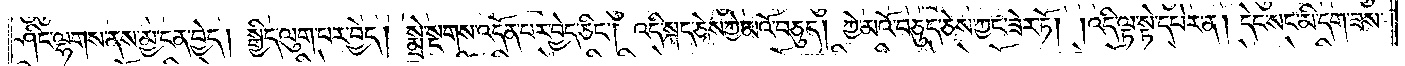ཤིང་ལྷགས་ནས་མྱ་ངན་བྱེད། སྒྱིད་ལུག་པར་བྱེད། སྨྲེ་སྔགས་འདོན་པར་བྱེད་ཅིང༌། འདི་སྐད་ཅེས་ཀྱེ་མའོ་བཅུད། ཀྱེ་མའོ་བཅུད་ཅེས་ཀྱང་ཟེར་ཏོ། །འདི་ལྟ་སྟེ་དཔེར་ན། དེང་སང་མི་དག་ཟས་
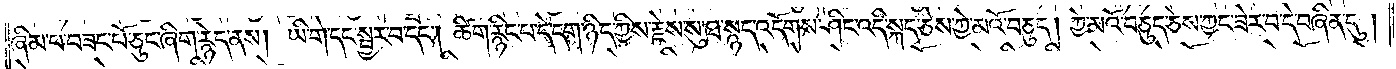ཞིམ་པ་བཟང་པོ་ཅུང་ཞིག་རྙེད་ནས། ཡི་གེ་དང་སྦྱར་བ་དང༌། ཚིག་རྙིང་པ་དེ་དག་ཉིད་ཀྱིས་རྗེས་སུ་ཐ་སྙད་འདོགས་ཤིང་འདི་སྐད་ཅེས་ཀྱེ་མའོ་བཅུད། ཀྱེ་མའོ་བཅུད་ཅེས་ཀྱང་ཟེར་བ་དེ་བཞིན་དུ།
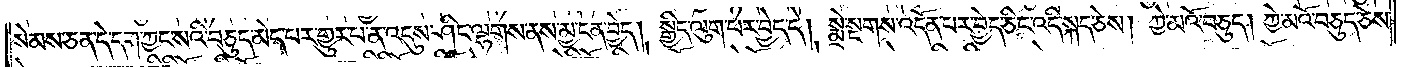སེམས་ཅན་དེ་དག་ཀྱང་སའི་བཅུད་མེད་པར་གྱུར་པ་ན་འདུས་ཤིང་ལྷགས་ནས་མྱ་ངན་བྱེད། སྒྱིད་ལུག་པར་བྱེད་དེ། སྨྲེ་སྔགས་འདོན་པར་བྱེད་ཅིང་འདི་སྐད་ཅེས། ཀྱེ་མའོ་བཅུད། ཀྱེ་མའོ་བཅུད་ཅེས་
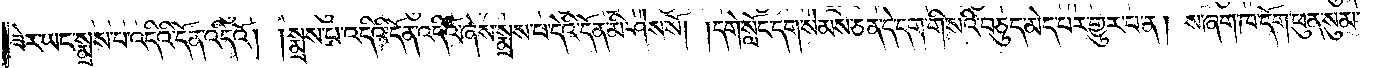ཟེར་ཡང་སྨྲས་པ་འདིའི་དོན་འདིའོ། །སྨྲས་པ་འདིའི་དོན་འདིའོ་ཞེས་སྨྲས་པ་དེའི་དོན་མི་ཤེས་སོ། །དགེ་སློང་དག་སེམས་ཅན་དེ་དག་གི་སའི་བཅུད་མེད་པར་གྱུར་པ་ན། ས་ཞག་ཁ་དོག་ཕུན་སུམ་
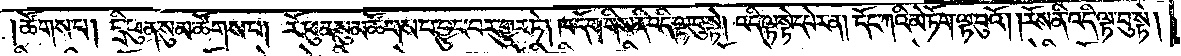།ཚོགས་པ། དྲི་ཕུན་སུམ་ཚོགས་པ། རོ་ཕུན་སུམ་ཚོགས་པ་བྱུང་བར་གྱུར་ཏེ། ཁ་དོག་གིས་ནི་འདི་ལྟ་བུ་སྟེ། འདི་ལྟ་སྟེ་དཔེར་ན། དོང་ཀའི་མེ་ཏོག་ལྟ་བུའོ། །རོས་ནི་འདི་ལྟ་བུ་སྟེ།
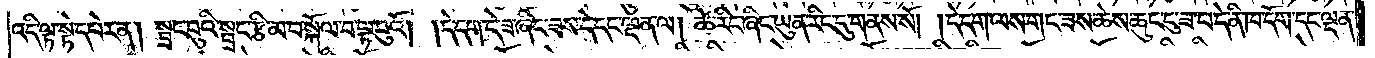འདི་ལྟ་སྟེ་དཔེར་ན། སྦྲང་བུའི་སྦྲང་རྩི་མ་བསྐོལ་བ་ལྟ་བུའོ། །དེ་དག་དེ་ཟ་ཞིང་ཟས་དེ་དང་ལྡན་ལ། ཚེ་རིང་ཞིང་ཡུན་རིང་དུ་གནས་སོ། །དེ་དག་ལས་གང་ཟས་ཆེས་ཆུང་ངུ་ཟ་བ་དེ་ནི་ཁ་དོག་དང་ལྡན་
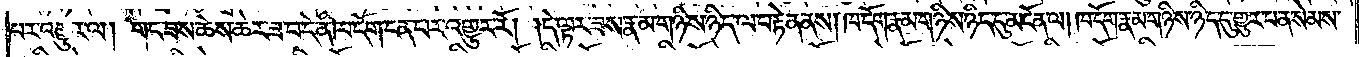པར་འགྱུར་ལ། གང་ཟས་ཆེས་ཆེར་ཟ་བ་དེ་ནི་ཁ་དོག་ངན་པར་འགྱུར་རོ། །དེ་ལྟར་ཟས་རྣམ་གཉིས་ཉིད་ལ་བརྟེན་ནས། ཁ་དོག་རྣམས་གཉིས་ཉིད་དུ་མངོན་ལ། ཁ་དོག་རྣམས་གཉིས་ཉིད་དུ་གྱུར་པ་ན་སེམས་
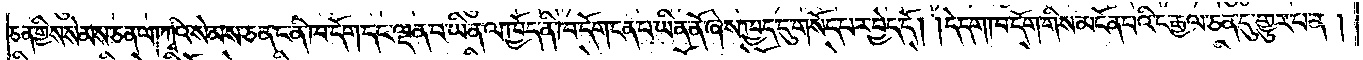ཅན་གྱིས་སེམས་ཅན་ལ།ཀྭའི་སེམས་ཅན་ང་ནི་ཁ་དོག་དང་ལྡན་པ་ཡིན་ལ་ཁྱོད་ནི་ཁ་དོག་ངན་པ་ཡིན་ནོ་ཞེས་ཁྱད་དུ་གསོད་པར་བྱེད་དོ། །དེ་དག་ཁ་དོག་གིས་མངོན་པའི་ང་རྒྱལ་ཅན་དུ་གྱུར་པ་ན་།
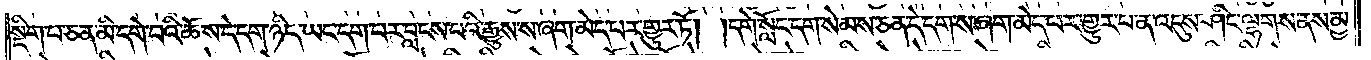སྡིག་པ་ཅན་མི་དགེ་བའི་ཆོས་དེ་དག་ཉིད་ཡང་དག་པར་བླངས་པའི་རྒྱུས་ས་ཞག་མེད་པར་གྱུར་ཏོ། །དགེ་སློང་དག་སེམས་ཅན་དེ་དག་ས་ཞག་མེད་པར་གྱུར་པ་ན་འདུས་ཤིང་ལྷགས་ནས་མྱ་
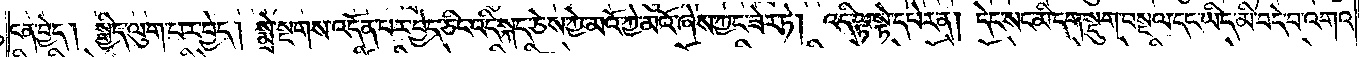ངན་བྱེད། སྒྱིད་ལུག་པར་བྱེད། སྨྲེ་སྔགས་འདོན་པར་བྱེད་ཅིང་འདི་སྐད་ཅེས་ཀྱེ་མའོ་ཀྱེ་མའོ་ཞེས་ཀྱང་ཟེར་ཏེ། འདི་ལྟ་སྟེ་དཔེར་ན། དེང་སང་མི་དག་སྡུག་བསྔལ་དང་ཡིད་མི་བདེ་བ་འགའ་
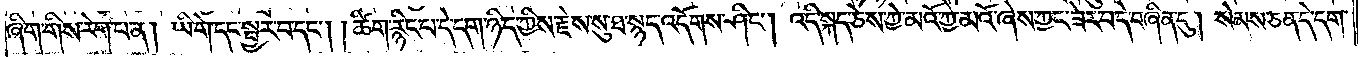ཞིག་གིས་རེག་པ་ན། ཡི་གེ་དང་སྦྱར་བ་དང༌། །ཚིག་རྙིང་པ་དེ་དག་ཉིད་ཀྱིས་རྗེས་སུ་ཐ་སྙད་འདོགས་ཤིང༌། འདི་སྐད་ཅེས་ཀྱེ་མའོ་ཀྱེ་མའོ་ཞེས་ཀྱང་ཟེར་བ་དེ་བཞིན་དུ། སེམས་ཅན་དེ་དག་
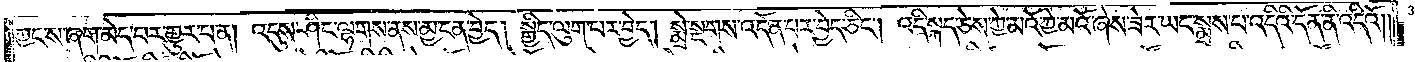ཀྱང་ས་ཞག་མེད་པར་གྱུར་པ་ན། འདུས་ཤིང་ལྷགས་ནས་མྱ་ངན་བྱེད། སྒྱིད་ལུག་པར་བྱེད། སྨྲེ་སྔགས་འདོན་པར་བྱེད་ཅིང༌། འདི་སྐད་ཅེས་ཀྱེ་མའོ་ཀྱེ་མའོ་ཞེས་ཟེར་ཡང་སྨྲས་པ་འདིའི་དོན་ནི་འདིའོ༎
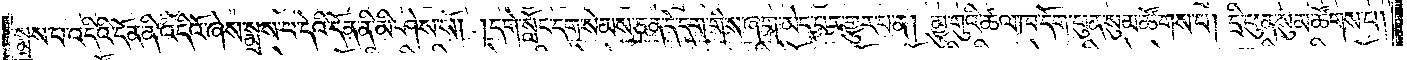སྨྲས་པ་འདིའི་དོན་ནི་འདིའོ་ཞེས་སྨྲས་པ་དེའི་དོན་ནི་མི་ཤེས་སོ། །དགེ་སློང་དག་སེམས་ཅན་དེ་དག་གིས་ཞག་མེད་པར་གྱུར་པ་ན། མྱུ་གུའི་ཚལ་ཁ་དོག་ཕུན་སུམ་ཚོགས་པ། དྲི་ཕུན་སུམ་ཚོགས་པ།
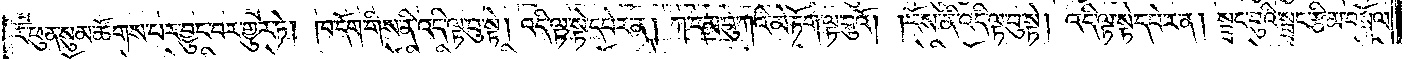རོ་ཕུན་སུམ་ཚོགས་པར་བྱུང་བར་གྱུར་ཏེ། ཁ་དོག་གིས་ནི་འདི་ལྟ་བུ་སྟེ། འདི་ལྟ་སྟེ་དཔེར་ན། ཀ་དམ་བུ་ཀའི་མེ་ཏོག་ལྟ་བུའོ། །རོས་ནི་འདི་ལྟ་བུ་སྟེ། འདི་ལྟ་སྟེ་དཔེར་ན། སྦྲང་བུའི་སྦྲང་རྩི་མ་བསྐོལ་
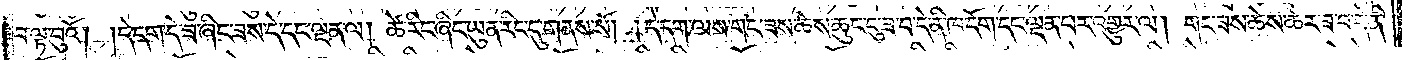བ་ལྟ་བུའོ། །དེ་དག་དེ་ཟ་ཞིང་ཟས་དེ་དང་ལྡན་ལ། ཚེ་རིང་ཞིང་ཡུན་རིང་དུ་གནས་སོ། །དེ་དག་ལས་གང་ཟས་ཆེས་ཆུང་ངུ་ཟ་བ་དེ་ནི་ཁ་དོག་དང་ལྡན་པར་འགྱུར་ལ། གང་ཟས་ཆེས་ཆེར་ཟ་བ་དེ་ནི་
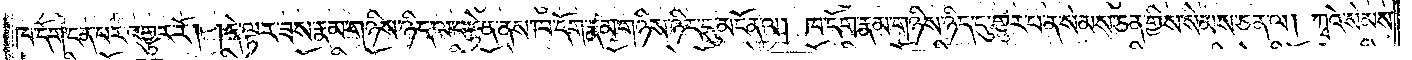ཁ་དོག་ངན་པར་འགྱུར་རོ། །དེ་ལྟར་ཟས་རྣམ་གཉིས་ཉིད་ལ་བརྟེན་ནས་ཁ་དོག་རྣམ་གཉིས་ཉིད་དུ་མངོན་ལ། ཁ་དོག་རྣམ་གཉིས་ཉིད་དུ་གྱུར་པ་ན་སེམས་ཅན་གྱིས་སེམས་ཅན་ལ། ཀྭའེ་སེམས་
